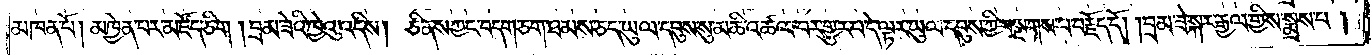མཁན་པོ། མཁྱེན་པར་མཛོད་ཅིག །བྲམ་ཟེའི་ཁྱེའུ་འདིས། ཅི་ནས་ཀྱང་བདག་ཅག་ཐམས་ཅད་ཡུལ་དབུས་སུ་མཆི་འཚལ་བར་གྱུར་པ་དེ་ལྟར་ཡུལ་དབུས་ཀྱི་བསྔགས་པ་བརྗོད་དོ། །བྲམ་ཟེ་སྐར་རྒྱལ་གྱིས་སྨྲས་པ།
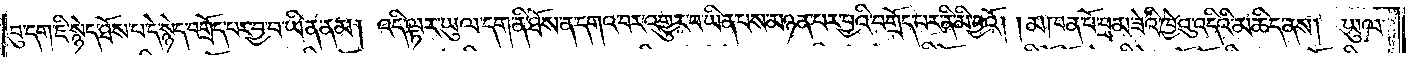བུ་དག་ཇི་སྙེད་ཐོས་པ་དེ་སྙེད་བགྲོད་པར་བྱ་བ་ཡིན་ནམ། འདི་ལྟར་ཡུལ་དག་ནི་ཐོས་ན་དགའ་བར་འགྱུར་བ་ཡིན་པས་མཉན་པར་བྱའི་བགྲོད་པར་ནི་མི་བྱའོ། །མཁན་པོ་བྲམ་ཟེའི་ཁྱེའུ་འདིའི་མཆིད་ནས། ཡུལ་
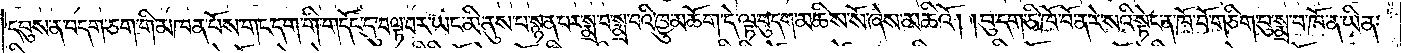དབུས་ན་བདག་ཅག་གི་མཁན་པོས་གང་དག་གི་གདོང་དུ་བལྟ་བར་ཡང་མི་ནུས་པ་སྙན་པར་སྨྲ་བ་སྨྲ་བའི་ཁྱུ་མཆོག་དེ་ལྟ་བུ་དག་མཆིས་སོ་ཞེས་མཆིའོ། །བུ་དག་ཅི་ཁོ་བོ་ན་རེ་སའི་སྟེང་ན་ཁོ་བོ་གཅིག་བུ་སྨྲ་བ་ཁོ་ན་ཡིན་
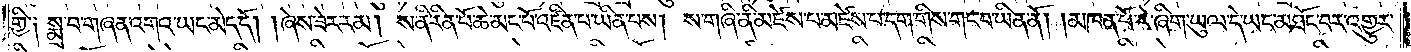གྱི༑ སྨྲ་བ་གཞན་འགའ་ཡང་མེད་དོ། །ཞེས་ཟེར་རམ། ས་ནི་རིན་པོ་ཆེ་མང་པོ་འཛིན་པ་ཡིན་པས། ས་གཞི་ནི་མཛེས་པ་མཛེས་པ་དག་གིས་གང་བ་ཡིན་ནོ། །མཁན་པོ་རེ་ཞིག་ཡུལ་དེ་ཡང་མཐོང་བར་འགྱུར་
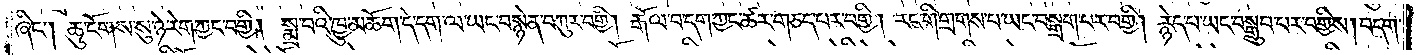ཞིང༌། ཆུ་ངོགས་སུ་ཉེ་རེག་ཀྱང་བགྱི། སྨྲ་བའི་ཁྱུ་མཆོག་དེ་དག་ལ་ཡང་བསྙེན་བཀུར་བགྱི། རྒོལ་བ་དག་ཀྱང་ཚར་གཅད་པར་བགྱི། རང་གི་གྲགས་པ་ཡང་བསྒྲག་པར་བགྱི། རྙེད་པ་ཡང་བསྒྲུབ་པར་བགྱིས། བདག་
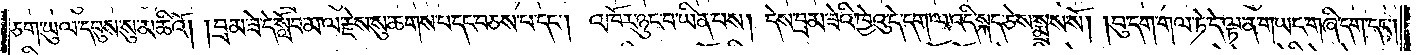ཅག་ཡུལ་དབུས་སུ་མཆིའོ། །བྲམ་ཟེ་དེ་སློབ་མ་ལ་རྗེས་སུ་ཆགས་པ་དང་བཅས་པ་དང༌། འཁོར་ཉུང་བ་ཡིན་པས། དེས་བྲམ་ཟེའི་ཁྱེའུ་དེ་དག་ལ་འདི་སྐད་ཅེས་སྨྲས་སོ། །བུ་དག་གལ་ཏེ་དེ་ལྟ་ན་གཡང་གཞི་དག་དང༌།
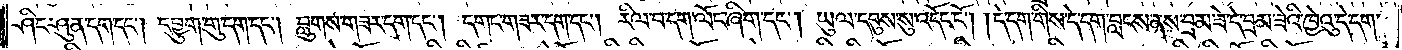ཤིང་ཤུན་དག་དང༌། དབྱུག་གུ་དག་དང༌། བླུགས་གཟར་དག་དང༌། དགང་གཟར་དག་དང༌། རིལ་བ་དག་ལོང་ཞིག་དང༌། ཡུལ་དབུས་སུ་འདོང་ངོ༌། །དེ་དག་གིས་དེ་དག་བླངས་ནས་བྲམ་ཟེ་དེ་བྲམ་ཟེའི་ཁྱེའུ་དེ་དག་
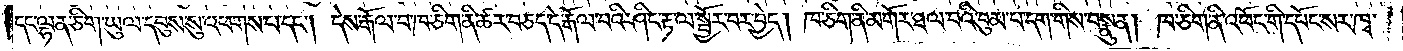དང་ལྷན་ཅིག་ཡུལ་དབུས་སུ་འཕགས་པ་དང༌། དེས་རྒོལ་བ་ཁ་ཅིག་ནི་ཚར་བཅད་དེ་རྒོལ་བའི་ཤིང་རྟ་ལ་སྦྱོར་བར་བྱེད། ཁ་ཅིག་ནི་མགོར་ཐལ་བའི་བུམ་པ་དག་གིས་བསྣུན། ཁ་ཅིག་ནི་འཕོང་གི་དཔོང་སར་ཁྭ་
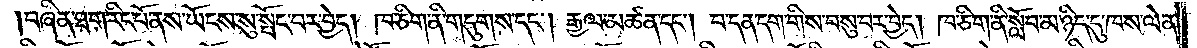།བཞིན་ཐག་རིང་པོ་ནས་ཡོངས་སུ་སྤོང་བར་བྱེད། ཁ་ཅིག་ནི་གདུགས་དང༌། རྒྱལ་མཚན་དང༌། བ་དན་དག་གིས་བསུ་བར་བྱེད། ཁ་ཅིག་ནི་སློབ་མ་ཉིད་དུ་ཁས་ལེན་
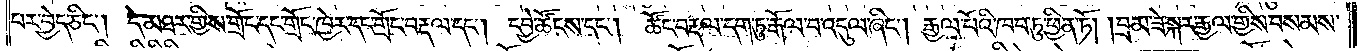པར་བྱེད་ཅིང༌། དེ་མཐར་གྱིས་གྲོང་དང་གྲོང་ཁྱེར་དང་གྲོང་བརྡལ་དང༌། དབྱེ་ཚོངས་དང༌། ཚོང་བརྡལ་དག་ཏུ་རྒོལ་བ་འདུལ་ཞིང༌། རྒྱལ་པོའི་ཁབ་ཏུ་ཕྱིན་ཏོ། །བྲམ་ཟེ་སྐར་རྒྱལ་གྱིས་བསམས་
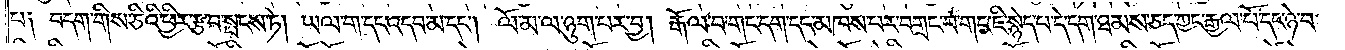པ༏ བདག་གིས་ཅིའི་ཕྱིར་རྩ་བ་སྤངས་ཏེ། ཡལ་ག་དང་འདབ་མ་དང༌། ལོ་མ་ལ་ཉུག་པར་བྱ། རྒོལ་བ་གང་དག་དང་མཁས་པར་བགྲང་པ་གང་ཇི་སྙེད་པ་དེ་དག་ཐམས་ཅད་ཀྱང་རྒྱལ་པོ་དང་ཉེ་བ་
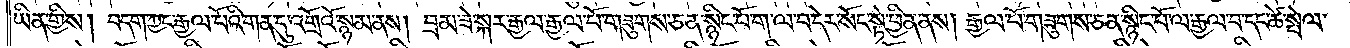ཡིན་གྱིས། བདག་ཀྱང་རྒྱལ་པོའི་གན་དུ་འགྲོའོ་སྙམ་ནས། བྲམ་ཟེ་སྐར་རྒྱལ་རྒྱལ་པོ་གཟུགས་ཅན་སྙིང་པོ་ག་ལ་བ་དེར་སོང་སྟེ་ཕྱིན་ནས། རྒྱལ་པོ་གཟུགས་ཅན་སྙིང་པོ་ལ་རྒྱལ་བ་དང་ཚེ་སྤེལ་
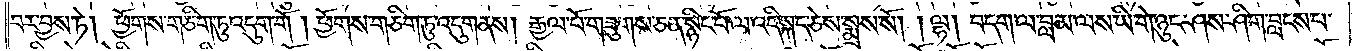བར་བྱས་ཏེ། ཕྱོགས་གཅིག་ཏུ་འདུག་གོ །ཕྱོགས་གཅིག་ཏུ་འདུག་ནས། རྒྱལ་པོ་གཟུགས་ཅན་སྙིང་པོ་ལ་འདི་སྐད་ཅེས་སྨྲས་སོ། །ལྷ། བདག་ལ་བླ་མ་ལས་ཡི་གེ་ཉུང་ཤས་ཤིག་བླངས་པ་
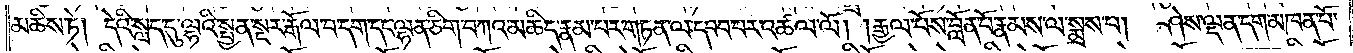མཆིས་ཏེ། དེའི་སླད་དུ་ལྷའི་སྤྱན་སྔར་རྒོལ་བ་དག་དང་ལྷན་ཅིག་བཀའ་མཆིད་རྣམ་པར་གཏན་ལ་དབབ་པར་འཚལ་ལོ། །རྒྱལ་པོས་བློན་པོ་རྣམས་ལ་སྨྲས་པ། ཤེས་ལྡན་དག་མཁན་པོ་
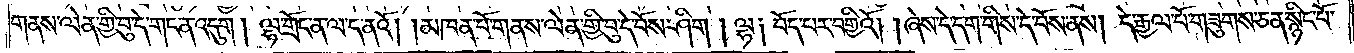གནས་ལེན་གྱི་བུ་དེ་གང་ན་འདུག། ལྷ་གྲོང་ན་ལ་ད་ནའོ། །མཁན་པོ་གནས་ལེན་གྱི་བུ་དེ་བོས་ཤིག། ལྷ༏ བོད་པར་བགྱིའོ། །ཞེས་དེ་དག་གིས་དེ་བོས་ནས། དེ་རྒྱལ་པོ་གཟུགས་ཅན་སྙིང་པོ་
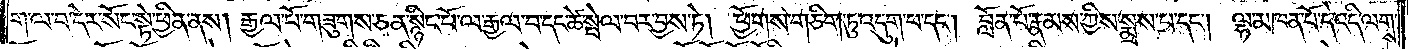ག་ལ་བ་དེར་སོང་སྟེ་ཕྱིན་ནས། རྒྱལ་པོ་གཟུགས་ཅན་སྙིང་པོ་ལ་རྒྱལ་བ་དང་ཚེ་སྤེལ་བར་བྱས་ཏེ། ཕྱོགས་གཅིག་ཏུ་འདུག་པ་དང༌། བློན་པོ་རྣམས་ཀྱིས་སྨྲས་པ་དང༌། ལྷ་མཁན་པོ་དེ་འདི་ལགས་
